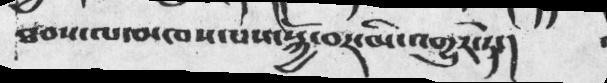ཐབས་ལ་མཁས་པས་སྐྱོ་བར་མི་འགྱུར་ཏེ་།།
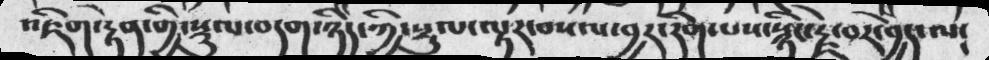འཇིག་རྟེན་གྱི་སྡུལ་བདག་ཉིད་ཀྱི་སྡུལ་ལྟར་བསལ་བྱར་དགེ་་པས་སྙིང་རྗེ་བར་བྱེད་ལ༴
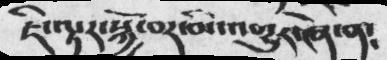ཇི་ལྟར་སྐྱོ་བར་མི་འགྱུར་ཞེ་ན༴
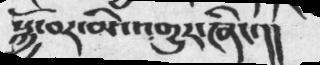སྐྱེ་བར་མི་འགྱུར་ཞིང་།།
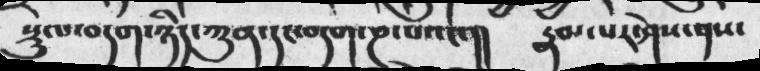སྡུལ་བདག་ཉིད་ཀུན་དང་བདག་ཎ་པའང་།།  རྣམ་པར་ཤེས་ནས་
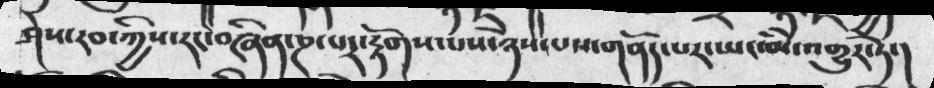ཤེས་རབ་ཀྱིས་རང་བཞིན་ཎ་པར་རྟོགས་པས་ཉེས་པ་གནོད་པར་ཡང་མ་འགྱུར་ཏེ་།
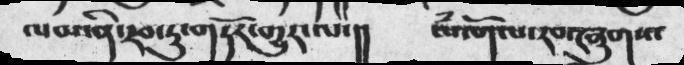ལམ་ནི་རབ་ཏུ་གཏོར་གྱུར་ལ་།།   ལཾ་གོལ་རབ་ཞུགས་
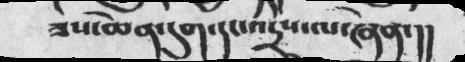ཟས་ཆེན་དུག་དང་འདྲས་ལ་ཞེན་།།
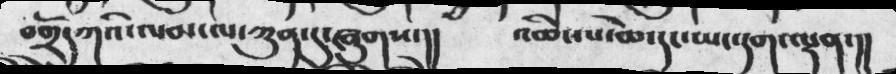བགྲོད་ཀའི་ལམ་ལ་ཀུན་དུ་ཞུགས་།།  འཆི་པ་ཆེ་དང་ཡང་དག་ལྡན་།།
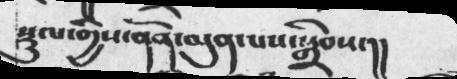སྡུལ་གྱིས་ནོན་མུན་པས་སྒྲིབས་།།
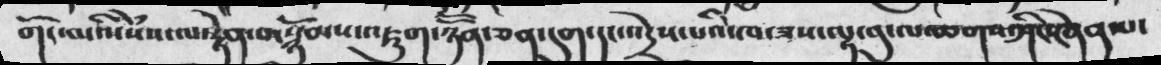གོང་མའི་སེཾས་ལ་རྟེན་སྙོམས་འཇུག་ཉོོན་ཅན་དུག་དང་འདྲེས་པའི་ཁ་ཟས་ལྟ་བུ་ལ་ཆགས་ཤིང་ཞེན་པ་
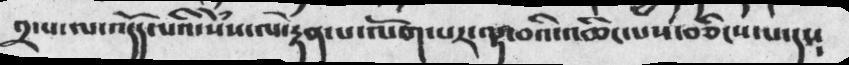༢་པ་ལ་འདོད་པའི་སེཾས་ལེ་རྟན་པ་ལོག་པར་ལྟ་བའི་འཆིང་པས་བཅིངས་པ་དང༴
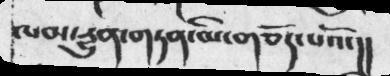ལམ་རྡུན་གཏན་མི་གཅོད་པའོ་།།
